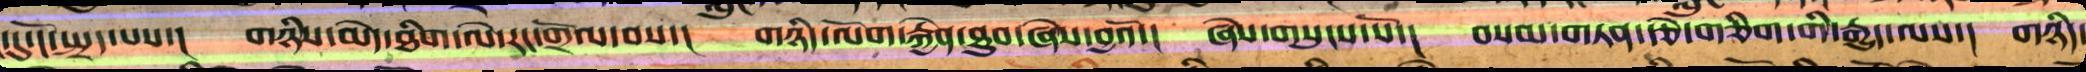་དུ་ངོ་སྤྲད་པས་། གཉིས་མེད་ཐིག་ལེ་རང་གྲོལ་བས་།  གཉིད་ལོག་རྐྱེན་ཐུབ་ཞེས་བྱའོ་།  ཞེས་གསུངས་སོ་།  བསམ་གཏན་རྩེ་གཅིག་གི་རྒྱུད་ལས་། གཉིད་
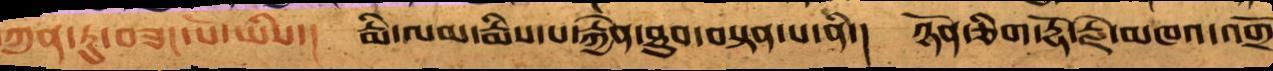ཀུན་ཏུ་བཟང་པོ་ཡིས་།  རྨི་ལམ་རྨིས་པ་རྐྱེན་ཐུབ་བསྟན་པ་ནི་།  ཉོན་ཅིག་རྡོ་རྗེ་མཁའ་འགྲོ
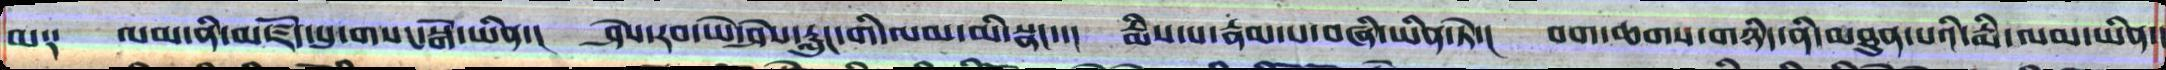མ༑  ལམ་ནི་མཛོད་པུ་གསང་སྒོ་ཡིན་།   ཤེས་རབ་ཡེ་ཤེས་རླུང་གི་ལམ་མི་སྣང་་།   རྨིས་པ་རྣམ་པ་བཞི་ཡིན་ཏེ་།   བག་ཆགས་གཉིད་ནི་མཐུན་པའི་རྨི་ལམ་ཡིན་།
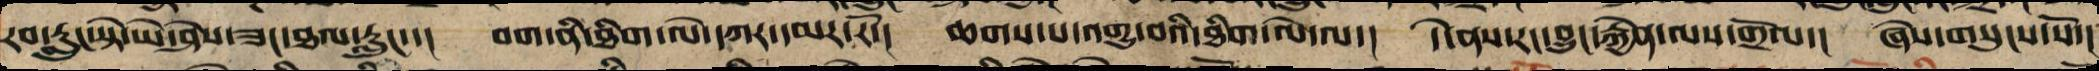རབ་རླུང་སྟེ་ཡེ་ཤེས་ཟང་ཐལ་རླུང་་།  བག་ནི་ཐིག་ལེ་དཀར་དམར་རོ་།  ཆགས་པ་འགྱུ་བའི་ཐིག་ལེ་ལ་།  དེ་ནས་རང་བྱུང་རྐྱེན་ལས་གྲོལ་།  ཞེས་གསུངས་སོ་།
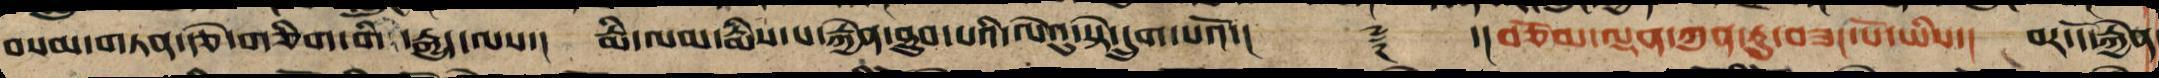བསམ་གཏན་རྩེ་གཅིག་གི་རྒྱུད་ལས་།   རྨི་ལམ་རྨིས་པ་རྐྱེན་ཐུབ་པའི་ལེའུ་སྟེ་དྲུག་པའོ་།།       ༈    ་།།བཅོམ་ལྡན་ཀུན་ཏུ་བཟང་པོ་ཡིས་།  བར་དོ་རྐྱེན
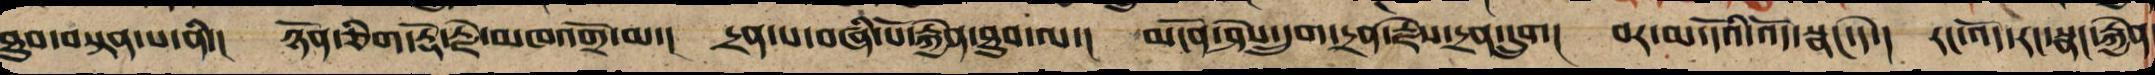ཐུབ་བསྟན་པ་ནི་།   ཉོན་ཅིག་རྡོ་རྗེ་མཁའ་འགྲོ་མ་།  དྲན་པ་བཞི་པོ་རྐྱེན་ཐུབ་ལ་།  མངོན་ཤེས་དྲུག་ལྡན་རྗེས་དྲན་དྲུག།  བར་མ་དོའི་འོད་སྣང་དེ་། རང་འོད་རང་སྣང་རྐྱེན
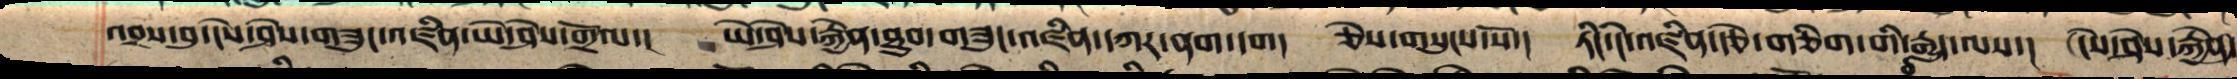འབྲས་བུ་ངེས་ཤེས་གཟུང་འཛིན་ཡེ་ཤེས་གྲོལ་།  ཡེ་ཤེས་རྐྱེན་ཐུབ་གཟུང་འཛིན་དཀར་ནག་དག། ཅེས་གསུངས་སོ་།  ཏིང་ངེ་འཛིན་རྩེ་གཅིག་གི་རྒྱུད་ལས།  ངེས་ཤེས་རྐྱེན་
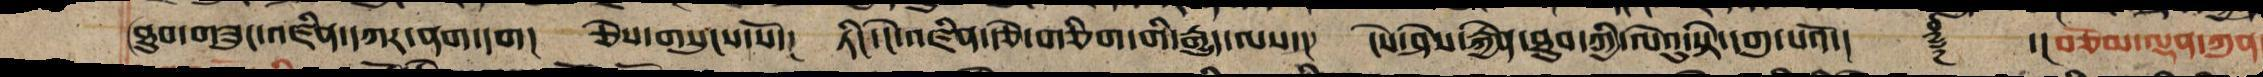ཐུབ་གཟུང་འཛིན་དཀར་ནག་དག།  ཅེས་གསུངས་སོ་།  ཏིང་ངེ་འཛིན་རྩེ་གཅིག་གི་རྒྱུད་ལས་།  ངེས་ཤེས་རྐྱེན་ཐུབ་ཀྱི་ལེའུ་སྟེ་དགུ་པའོ་།  ༈ཾ  ་།བཅོམ་ལྡན་ཀུན་
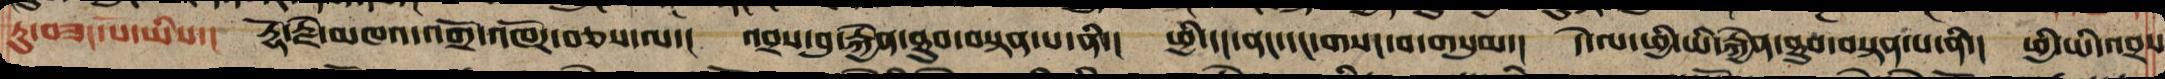ཏུ་བཟང་པོ་ཡིས་།  རྡོ་རྗེ་མཁའ་འགྲོ་འཁོར་བཅས་ལ་།  འབྲས་བུ་རྐྱེན་ཐུབ་བསྟན་པ་ནི་།  ཕྱི་དང་ནང་དང་གསང་བ་གསུམ་།  དེ་ལ་ཕྱི་ཡི་རྐྱེན་ཐུབ་བསྟན་པ་ནི་།  ཕྱི་ཡི་འབྲས
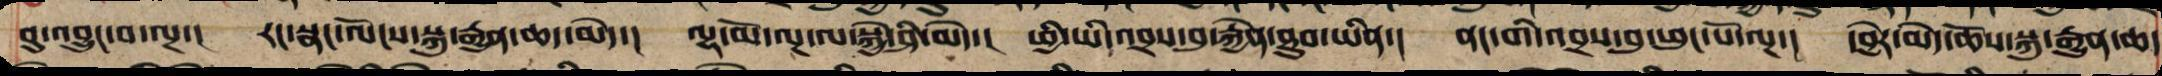བུ་འབྱུང་བ་ལྔ་།  རང་སྣང་ལོངས་སྐུ་རྒྱུན་ཆད་མེད་།  ལྷ་མོ་ལྔ་ལ་སྐྱེ་ཤི་མེད་།  ཕྱི་ཡི་འབྲས་བུ་རྐྱེན་ཐུབ་ཡིན་།  ནང་གི་འབྲས་བུ་ཕུང་པོ་ལྔ་།  དབྱེར་མེད་ཆོས་སྐུ་རྒྱུན་ཆད
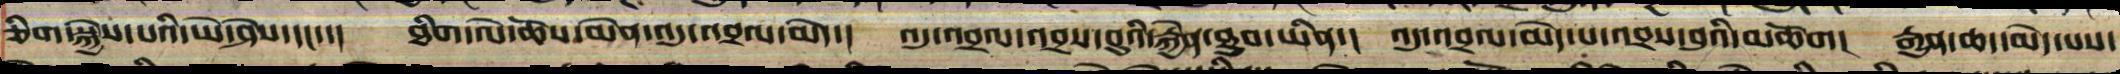ཅིག་སྐྱེས་པའི་ཡེ་ཤེས་དང་་།  ཐིག་ལེ་ཆོས་མེན་འདུ་འབྲལ་མེད་།  འདུ་འབྲལ་འབྲས་བུའི་རྐྱེན་ཐུབ་ཡིན་།  འདུ་འབྲལ་མེད་པ་འབྲས་བུའི་མཆོག།  རྒྱུན་ཆད་མེད་པས་
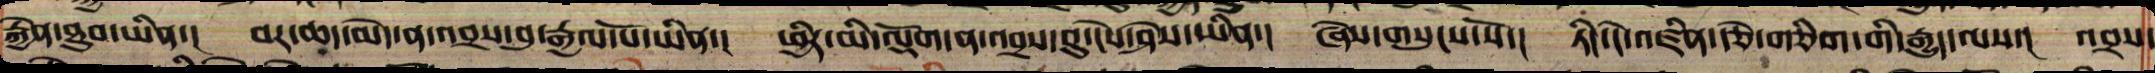རྐྱེན་ཐུབ་ཡིན་།  བར་ཆད་མེད་ན་འབྲས་བུའི་རྒྱལ་པོ་ཡིན་།   ཕྱིར་མི་ལྡོག་ན་འབྲས་བུ་ངེས་ཤེས་ཡིན་།  ཞེས་གསུངས་སོ་།  ཏིང་ངེ་འཛིན་རྩེ་གཅིག་གི་རྒྱུད་ལས་། འབྲས་
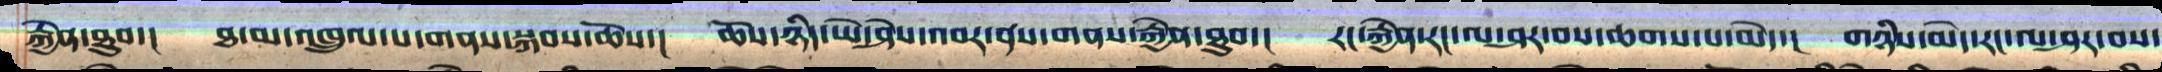རྐྱེན་ཐུབ་།  ཐ་མ་འཁྲུལ་པ་གནས་སྐབས་ཆོས་།  ཆོས་ཉིད་ཡེ་ཤེས་འབར་ནས་གནས་རྐྱེན་ཐུབ།  རང་རྐྱེན་རང་ལ་ཤར་བས་ཆགས་པ་མེད་།  གཉིས་མེད་རང་ལ་ཤར་བས་
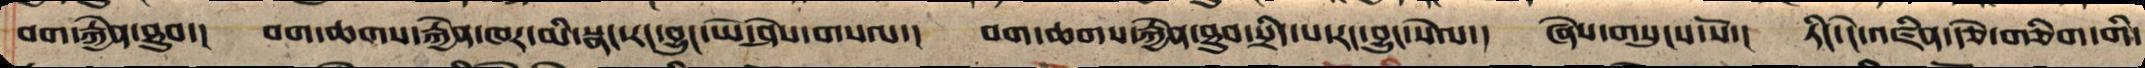བག་རྐྱེན་ཐུབ་།  བག་ཆགས་རྐྱེན་ཁར་མི་སྣང་རང་བྱུང་ཡེ་ཤེས་གསལ་།  བག་ཆགས་རྐྱེན་ཐུབ་སྲིད་པ་རང་བྱུང་སེལ་། ཞེས་གསུངས་སོ་།  ཏིང་ངེ་འཛིན་རྩེ་གཅིག་གི་
